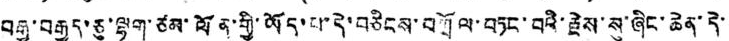བརྒྱ་བརྒྱད་ཅུ་ལྷག་ཙམ་ལོན་གྱི་ཡོད་པ་དེ་བཅིངས་བཀྲོལ་བཏང་བའི་རྗེས་སུ་ཞིང་ཆེན་དེ་
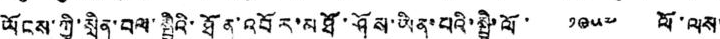ཡོངས་ཀྱི་སྲིན་བལ་སྤྱིའི་ཐོན་འབོར་མཐོ་ཤོས་ཡིན་པའི་སྤྱི་ལོ་ ༡༩༥༧ ལོ་ལས་
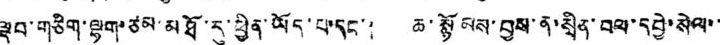ལྡབ་གཅིག་ལྷག་ཙམ་མཐོ་རུ་ཕྱིན་ཡོད་པ་དང་། ཆ་སྙོམས་བྱས་ན་སྲིན་བལ་དབྱེ་སེལ་་
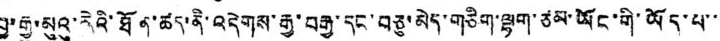བྱ་རྒྱུ་མུའུ་རེའི་ཐོན་ཚད་ནི་འདེགས་རྒྱ་བརྒྱ་དང་བཅུ་མེད་གཅིག་ལྷག་ཙམ་ཡོང་གི་ཡོད་པ་་
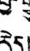རེད།
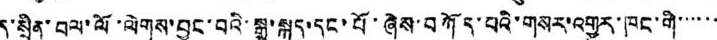དུ་སྲིན་བལ་ལོ་ལེགས་བྱུང་བའི་སྒྲ་སྐད་དང་པོ་ཞེས་བཀོད་པའི་གསར་འགྱུར་ཁང་གི་་་་་་
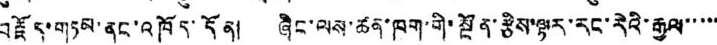བརྗོད་གཏམ་ནང་འཁོད་དོན། ཞིང་ལས་ཚན་ཁག་གི་སྔོན་རྩིས་ལྟར་རང་རེའི་རྒྱལ་་་་་
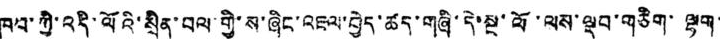ཁབ་ཀྱི་འདི་ལོའི་སྲིན་བལ་གྱི་ས་ཞིང་འཇལ་བྱེད་ཚད་གཞི་དེ་སྔ་ལོ་ལས་ལྡབ་གཅིག་ལྷག་
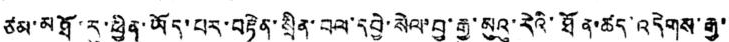ཙམ་མཐོ་རུ་ཕྱིན་ཡོད་པར་བརྟེན་སྲིན་བལ་དབྱེ་སེལ་བྱ་རྒྱུ་མུའུ་རེའི་ཐོན་ཚད་འདེགས་རྒྱ་
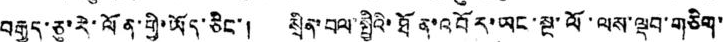བརྒྱད་ཅུ་རེ་ལོན་གྱི་ཡོད་ཅིང་། སྲིན་བལ་སྤྱིའི་ཐོན་འབོར་ཡང་སྔ་ལོ་ལས་ལྡབ་གཅིག་
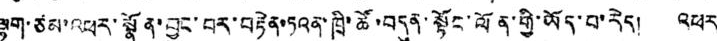ལྷག་ཙམ་འཕར་སྣོན་བྱུང་བར་བརྟེན་ཏའན་ཁྲི་ཚོ་བདུན་སྟོང་ལོན་གྱི་ཡོད་པ་རེད། འཕར
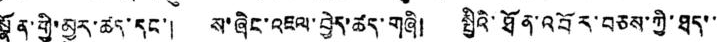སྣོན་གྱི་མྱུར་ཚད་དང་། ས་ཞིང་འཇལ་བྱེད་ཚད་གཞི། སྤྱིའི་ཐོན་འབོར་བཅས་ཀྱི་ཐད་་
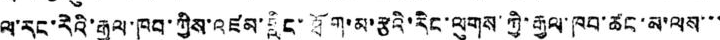ལ་རང་རེའི་རྒྱལ་ཁབ་ཀྱིས་འཛམ་གླིང་ཐོག་མ་རྩའི་རིང་ལུགས་ཀྱི་རྒྱལ་ཁབ་ཚང་མ་ལས་་་
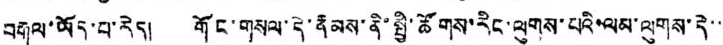བརྒལ་ཡོད་པ་རེད། གོང་གསལ་དེ་རྣམས་ནི་སྤྱི་ཚོགས་རིང་ལུགས་པའི་ལམ་ལུགས་དེ་་
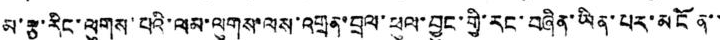མ་རྩ་རིང་ལུགས་པའི་ལམ་ལུགས་ལས་འགྲན་བྲལ་ཕུལ་བྱུང་གྱི་རང་བཞིན་ཡིན་པར་མངོན་་
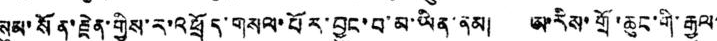སུམ་སོན་རྗེན་གྱིས་ར་འཕྲོད་གསལ་པོར་བྱུང་བ་མ་ཡིན་ནམ། ཨ་རིས་གྲོ་ཆུང་གི་རྒྱལ་
